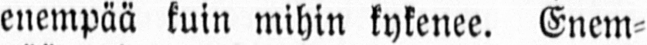enempää kuin mihin kykenee. Enem-
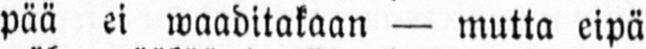pää ei waaditakaan — mutta eipä
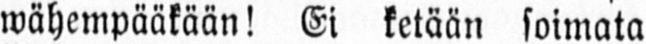wähempääkään! Ei ketään soimata
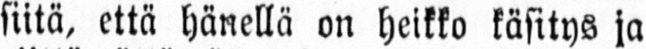siitä, että hänellä on heikko käsitys ja
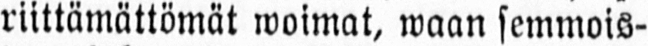riittämättömät woimat, waan semmois-
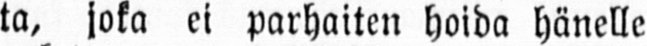ta, joka ei parhaiten hoida hänelle
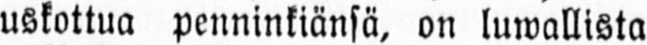uskottua penninkiänsä, on luwallista
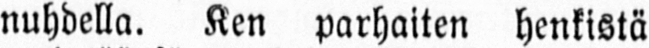nuhdella. Ken parhaiten henkistä
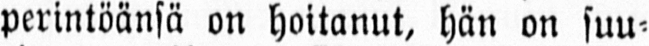perintöänsä on hoitanut, hän on suu-
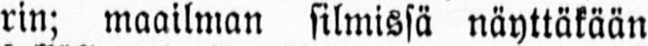rin; maailman silmissä näyttäkään
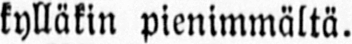kylläkin pienimmältä.
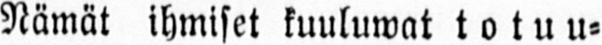Nämät ihmiset kuuluwat totuu-
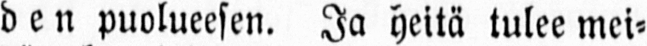den puolueesen. Ja heitä tulee mei-
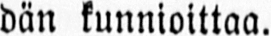dän kunnioittaa.
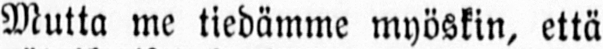Mutta me tiedämme myöskin, että
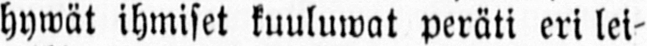hywät ihmiset kuuluwat peräti eri lei-
